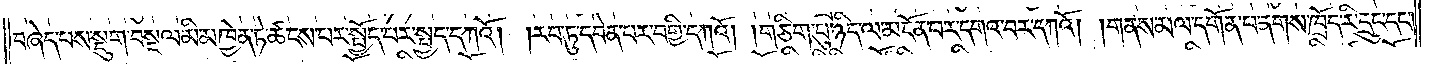བཞེད་པས་སྡུག་བསྔལ་མི་མཁྱེན་ཏེ་ཚངས་པར་སྤྱོད་པར་སྤྱད་དཀའོ། །རབ་ཏུ་དབེན་པར་བགྱི་དཀའོ། །གཅིག་པུ་ཉིད་ལ་མངོན་པར་དགའ་བར་དཀའོ། །གནས་མལ་དགོན་པ་ནགས་ཁྲོད་རི་དྲུང་དང་
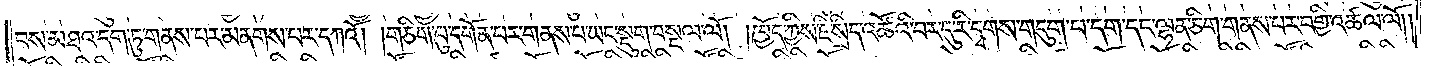བས་མཐའ་དག་ཏུ་གནས་པར་མནགས་པར་དཀའོ། །གཅིག་པུ་དགོན་པར་གནས་པ་ཡང་སྡུག་བསྔལ་ལོ། །ཁྱོད་ཀྱིས་ཇི་སྲིད་འཚོའི་བར་དུ་རི་དྭགས་གདུག་པ་དག་དང་ལྷན་ཅིག་གནས་པར་བགྱི་འཚལ་ལོ། །
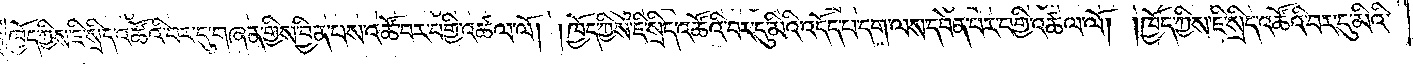ཁྱོད་ཀྱིས་ཇི་སྲིད་འཚོའི་བར་དུ་གཞན་གྱིས་བྱིན་པས་འཚོ་བར་བགྱི་འཚལ་ལོ། །ཁྱོད་ཀྱིས་ཇི་སྲིད་འཚོའི་བར་དུ་མིའི་འདོད་པ་དག་ལས་དབེན་པར་བགྱི་འཚལ་ལོ། །ཁྱོད་ཀྱིས་ཇི་སྲིད་འཚོའི་བར་དུ་མིའི་
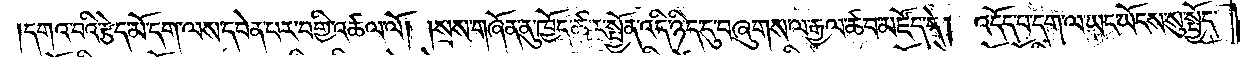དགའ་བའི་རྩེད་མོ་དག་ལས་དབེན་པར་བགྱི་འཚལ་ལོ། །སྲས་གཞོན་ནུ་ཁྱོད་ཚུར་སྤྱོན་འདི་ཉིད་དུ་བཞུགས་ལ་རྒྱལ་ཚབ་མཛོད་དེ། འདོད་པ་དག་ལ་ཡང་ཡོངས་སུ་སྤྱོད་
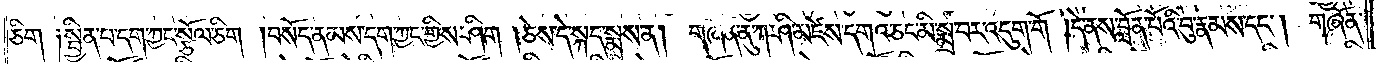ཅིག ༑སྦྱིན་པ་དག་ཀྱང་སྩོལ་ཅིག །བསོད་ནམས་དག་ཀྱང་གྱིས་ཤིག །ཅེས་དེ་སྐད་སྨྲས་ན། གཞོན་ནུ་ཀ་ཤི་མཛེས་དགའ་ཅང་མི་སྨྲ་བར་འདུག་གོ །དེ་ནས་བློན་པོའི་བུ་རྣམས་དང༌། གཞོན་
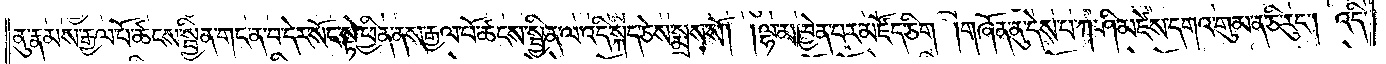ནུ་རྣམས་རྒྱལ་པོ་ཚངས་སྦྱིན་གང་ན་བ་དེར་སོང་སྟེ་ཕྱིན་ནས་རྒྱལ་པོ་ཚངས་སྦྱིན་ལ་འདི་སྐད་ཅེས་སྨྲས་སོ། །ལྷ་མཁྱེན་པར་མཛོད་ཅིག །གཞོན་ནུ་དེས་པ་ཀ་ཤི་མཛེས་དགའ་གུམ་ན་ཅི་རུང༌། འདི་
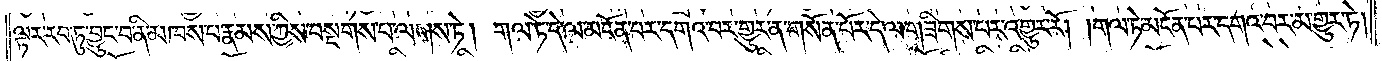ལྟར་རབ་ཏུ་བྱུང་བ་ནི་མཁས་པ་རྣམས་ཀྱིས་བསྔགས་པ་ལགས་ཏེ། གལ་ཏེ་དེ་ལ་མངོན་པར་དགའ་བར་གྱུར་ན་གསོན་པོར་དེ་ལ་གཟིགས་པར་འགྱུར་རོ། །གལ་ཏེ་མངོན་པར་དགའ་བར་མ་གྱུར་ཏེ།
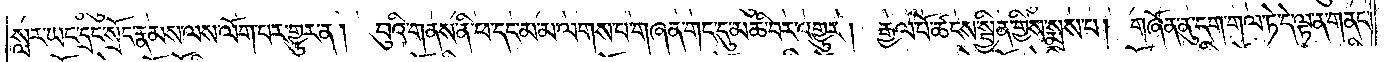སླར་ཡང་དྲང་སྲོང་རྣམས་ལས་ལོག་པར་གྱུར་ན། བུའི་གནས་ནི་ཕ་དང་མ་མ་ལགས་པ་གཞན་གང་དུ་མཆི་བར་འགྱུར། རྒྱལ་པོ་ཚངས་སྦྱིན་གྱིས་སྨྲས་པ། གཞོན་ནུ་དག་གལ་ཏེ་དེ་ལྟ་ན་གནང་
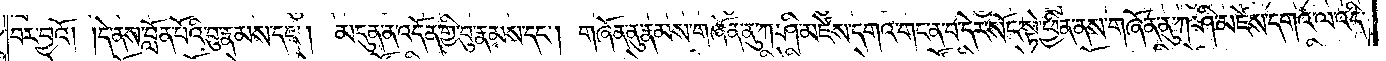བར་བྱའོ། །དེ་ནས་བློན་པོའི་བུ་རྣམས་དང༌། མདུན་ན་འདོན་གྱི་བུ་རྣམས་དང༌། གཞོན་ནུ་རྣམས་གཞོན་ནུ་ཀ་ཤི་མཛེས་དགའ་གང་ན་བ་དེར་སོང་སྟེ་ཕྱིན་ནས་གཞོན་ནུ་ཀ་ཤི་མཛེས་དགའ་ལ་འདི་
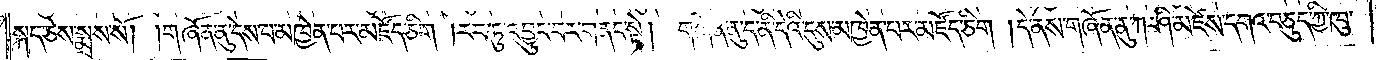སྐད་ཅེས་སྨྲས་སོ། །གཞོན་ནུ་དེས་པ་མཁྱེན་པར་མཛོད་ཅིག །རབ་ཏུ་འབྱུང་བར་གནང་སྟེ། གཞོན་ནུ་ད་ནི་དེའི་དུས་མཁྱེན་པར་མཛོད་ཅིག །དེ་ནས་གཞོན་ནུ་ཀ་ཤི་མཛེས་དགའ་བཅུད་ཀྱི་ཁུ་
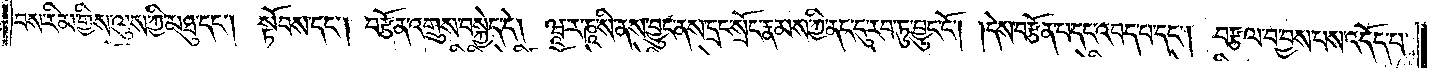བས་རིམ་གྱིས་ལུས་ཀྱི་མཐུ་དང༌། སྟོབས་དང༌། བརྩོན་འགྲུས་བསྐྱེད་དེ། ཝཱ་ར་ཎཱ་སི་ནས་བྱུང་ནས་དྲང་སྲོང་རྣམས་ཀྱི་ནང་དུ་རབ་ཏུ་བྱུང་ངོ༌། །དེས་བརྩན་པ་དང་འབད་པ་དང༌། བརྩལ་བ་བྱས་པས་འདོད་པ་
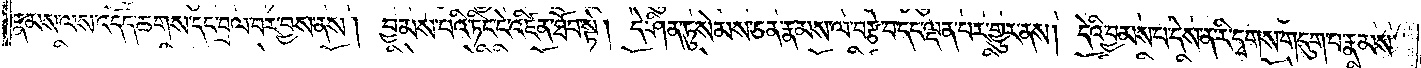རྣམས་ལས་འདོད་ཆགས་དང་བྲལ་བར་བྱས་ནས། བྱམས་པའི་ཏིང་ངེ་འཛིན་ཐོབ་སྟེ། དེ་ཤིན་ཏུ་སེམས་ཅན་རྣམས་ལ་བརྩེ་བ་དང་ལྡན་པར་གྱུར་ནས། དེའི་བྱམས་པ་དེས་ན་རི་དྭགས་གདུག་པ་རྣམས་
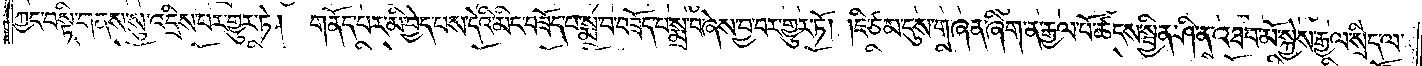ཀྱང་བསྟི་གནས་སུ་འདྲིས་པར་གྱུར་ཏེ། གནོད་པར་མི་བྱེད་པས་དེའི་མིང་བཟོད་པ་སྨྲ་བ་བཟོད་པ་སྨྲ་བ་ཞེས་བྱ་བར་གྱུར་ཏོ། །ཇི་ཙམ་དུས་གཞན་ཞིག་ན་རྒྱལ་པོ་ཚངས་སྦྱིན་ཤི་ནས་འཐབ་མོ་སྐྱེས་རྒྱལ་སྲིད་ལ་
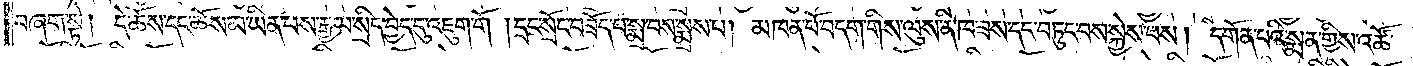བཞག་སྟེ། དེ་ཆོས་དང་ཆོས་མ་ཡིན་པས་རྒྱལ་སྲིད་བྱེད་དུ་འཇུག་གོ །དྲང་སྲོང་བཟོད་པ་སྨྲ་བས་སྨྲས་པ། མཁན་པོ་བདག་གིས་ལུས་ནི་ཁ་ཟས་དང་བཏུང་བས་སྐྱེས་པས། དགོན་པའི་སྨན་གྱིས་འཚོ་
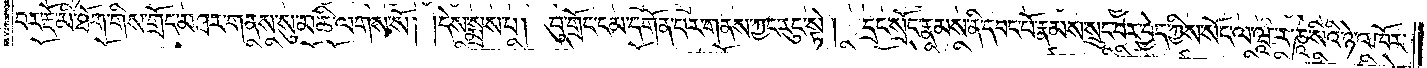བར་རྔོ་མི་ཐོག་གིས་གྲོང་མཐར་གནས་སུ་མཆི་ལགས་སོ། །དེས་སྨྲས་པ། བུ་གྲོང་ངམ་དགོན་པར་གནས་ཀྱང་རུང་སྟེ། དྲང་སྲོང་རྣམས་ནི་དབང་པོ་རྣམས་སྲུང་བར་བྱེད་ཀྱིས་སོང་ལ་ཝཱ་ར་ཎཱ་སིའི་ཉེ་འཁོར་
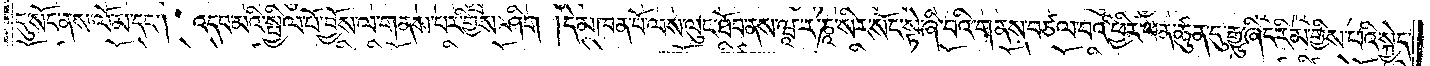དུ་སོང་ནས་ལོ་མ་དང༌། འདབ་མའི་སྤྱིལ་པོ་བྱོས་ལ་གནས་པར་གྱིས་ཤིག །དེ་མཁན་པོ་ལས་ལུང་ཐོབ་ནས་ཝཱ་ར་ཎཱ་སིར་སོང་སྟེ་ཞི་བའི་གནས་བཙལ་བའི་ཕྱིར་ཕན་ཚུན་དུ་རྒྱུ་ཞིང་རིམ་གྱིས་ཕའི་སྐྱེད་
